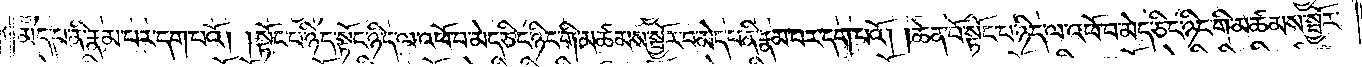མེད་པ་ནི་རྣམ་པར་དག་པའོ། །སྟོང་པ་ཉིད་སྟོང་པ་ཉིད་ལ་འཕོ་བ་མེད་ཅིང་ཉིང་གི་མཚམས་སྦྱོར་བ་མེད་པ་ནི་རྣམ་པར་དག་པའོ། །ཆེན་པོ་སྟོང་པ་ཉིད་ལ་འཕོ་བ་མེད་ཅིང་ཉིང་གི་མཚམས་སྦྱོར་
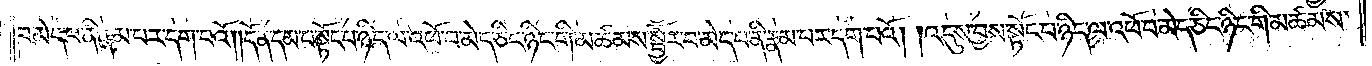བ་མེད་པ་ནི་རྣམ་པར་དག་པའོ། །དོན་དམ་པ་སྟོང་པ་ཉིད་ལ་འཕོ་བ་མེད་ཅིང་ཉིང་གི་མཚམས་སྦྱོར་བ་མེད་པ་ནི་རྣམ་པར་དག་པའོ། །འདུས་བྱས་སྟོང་པ་ཉིད་ལ་འཕོ་བ་མེད་ཅིང་ཉིང་གི་མཚམས་
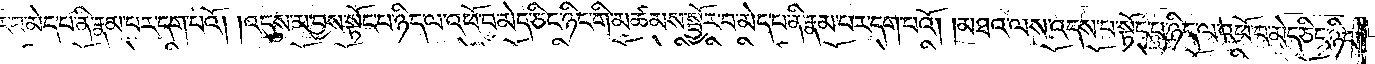སྦྱོར་བ་མེད་པ་ནི་རྣམ་པར་དག་པའོ། །འདུས་མ་བྱས་སྟོང་པ་ཉིད་ལ་འཕོ་བ་མེད་ཅིང་ཉིང་གི་མཚམས་སྦྱོར་བ་མེད་པ་ནི་རྣམ་པར་དག་པའོ། །མཐའ་ལས་འདས་པ་སྟོང་པ་ཉིད་ལ་འཕོ་བ་མེད་ཅིང་ཉིང་
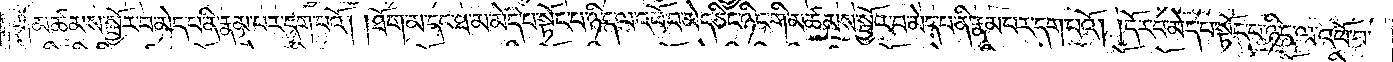གི་མཚམས་སྦྱོར་བ་མེད་པ་ནི་རྣམ་པར་དག་པའོ། །ཐོག་མ་དང་ཐ་མ་མེད་པ་སྟོང་པ་ཉིད་ལ་འཕོ་བ་མེད་ཅིང་ཉིང་གི་མཚམས་སྦྱོར་བ་མེད་པ་ནི་རྣམ་པར་དག་པའོ། །དོར་བ་མེད་པ་སྟོང་པ་ཉིད་ལ་འཕོ་བ་
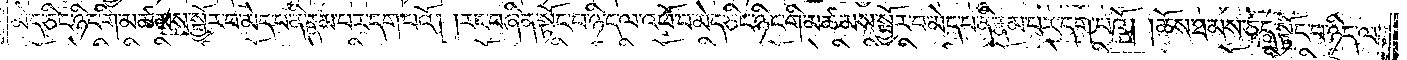མེད་ཅིང་ཉིང་གི་མཚམས་སྦྱོར་བ་མེད་པ་ནི་རྣམ་པར་དག་པའོ། །རང་བཞིན་སྟོང་པ་ཉིད་ལ་འཕོ་བ་མེད་ཅིང་ཉིང་གི་མཚམས་སྦྱོར་བ་མེད་པ་ནི་རྣམ་པར་དག་པའོ། །ཆོས་ཐམས་ཅད་སྟོང་པ་ཉིད་ལ་
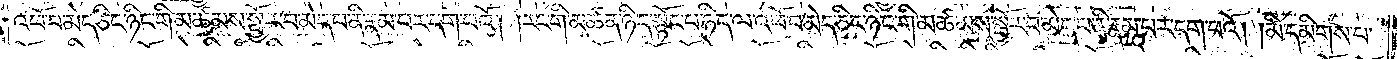འཕོ་བ་མེད་ཅིང་ཉིང་གི་མཚམས་སྦྱོར་བ་མེད་པ་ནི་རྣམ་པར་དག་པའོ། །རང་གི་མཚན་ཉིད་སྟོང་པ་ཉིད་ལ་འཕོ་བ་མེད་ཅིང་ཉིང་གི་མཚམས་སྦྱོར་བ་མེད་པ་ནི་རྣམ་པར་དག་པའོ། །མི་དམིགས་པ་
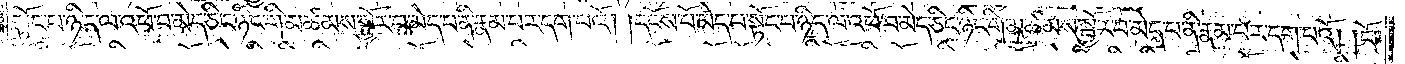སྟོང་པ་ཉིད་ལ་འཕོ་བ་མེད་ཅིང་ཉིང་གི་མཚམས་སྦྱོར་བ་མེད་པ་ནི་རྣམ་པར་དག་པའོ། །དངོས་པོ་མེད་པ་སྟོང་པ་ཉིད་ལ་འཕོ་བ་མེད་ཅིང་ཉིང་གི་མཚམས་སྦྱོར་བ་མེད་པ་ནི་རྣམ་པར་དག་པའོ། །ངོ་
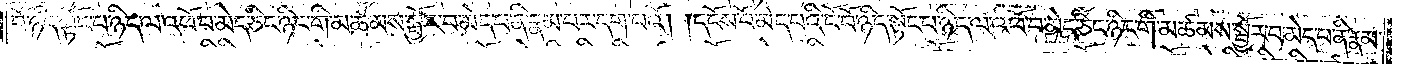བོ་ཉིད་སྟོང་པ་ཉིད་ལ་འཕོ་བ་མེད་ཅིང་ཉིང་གི་མཚམས་སྦྱོར་བ་མེད་པ་ནི་རྣམ་པར་དག་པའོ། །དངོས་པོ་མེད་པའི་ངོ་བོ་ཉིད་སྟོང་པ་ཉིད་ལ་འཕོ་བ་མེད་ཅིང་ཉིང་གི་མཚམས་སྦྱོར་བ་མེད་པ་ནི་རྣམ་
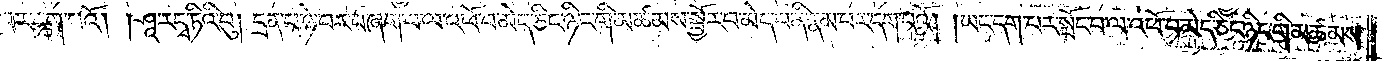པར་དག་པའོ། །ཤཱ་རདྭ་ཏིའི་བུ། དྲན་པ་ཉེ་བར་བཞག་པ་ལ་འཕོ་བ་མེད་ཅིང་ཉིང་གི་མཚམས་སྦྱོར་བ་མེད་པ་ནི་རྣམ་པར་དག་པའོ། །ཡང་དག་པར་སྤོང་བ་ལ་འཕོ་བ་མེད་ཅིང་ཉིང་གི་མཚམས་
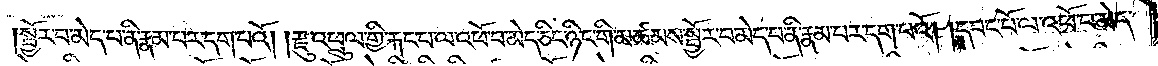སྦྱོར་བ་མེད་པ་ནི་རྣམ་པར་དག་པའོ། །རྫུ་འཕྲུལ་གྱི་རྐང་པ་ལ་འཕོ་བ་མེད་ཅིང་ཉིང་གི་མཚམས་སྦྱོར་བ་མེད་པ་ནི་རྣམ་པར་དག་པའོ། །དབང་པོ་ལ་འཕོ་བ་མེད་
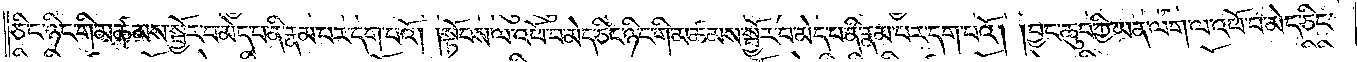ཅིང་ཉིང་གི་མཚམས་སྦྱོར་བ་མེད་པ་ནི་རྣམ་པར་དག་པའོ། །སྟོབས་ལ་འཕོ་བ་མེད་ཅིང་ཉིང་གི་མཚམས་སྦྱོར་བ་མེད་པ་ནི་རྣམ་པར་དག་པའོ། །བྱང་ཆུབ་ཀྱི་ཡན་ལག་ལ་འཕོ་བ་མེད་ཅིང་
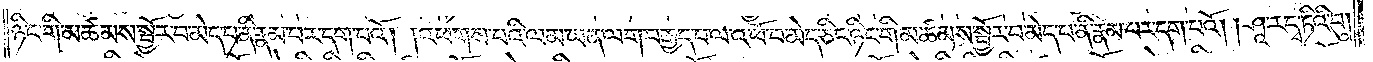ཉིང་གི་མཚམས་སྦྱོར་བ་མེད་པ་ནི་རྣམ་པར་དག་པའོ། །འཕགས་པའི་ལམ་ཡན་ལག་བརྒྱད་པ་ལ་འཕོ་བ་མེད་ཅིང་ཉིང་གི་མཚམས་སྦྱོར་བ་མེད་པ་ནི་རྣམ་པར་དག་པའོ། །ཤཱ་རདྭ་ཏིའི་བུ།
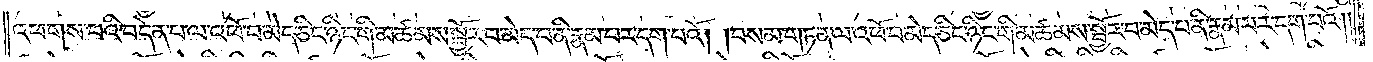འཕགས་པའི་བདེན་པ་ལ་འཕོ་བ་མེད་ཅིང་ཉིང་གི་མཚམས་སྦྱོར་བ་མེད་པ་ནི་རྣམ་པར་དག་པའོ། །བསམ་གཏན་ལ་འཕོ་བ་མེད་ཅིང་ཉིང་གི་མཚམས་སྦྱོར་བ་མེད་པ་ནི་རྣམ་པར་དག་པའོ། །
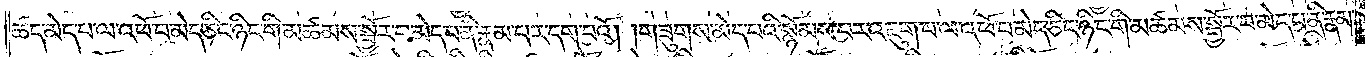ཚད་མེད་པ་ལ་འཕོ་བ་མེད་ཅིང་ཉིང་གི་མཚམས་སྦྱོར་བ་མེད་པ་ནི་རྣམ་པར་དག་པའོ། །གཟུགས་མེད་པའི་སྙོམས་པར་འཇུག་པ་ལ་འཕོ་བ་མེད་ཅིང༌ཉིང་གི་མཚམས་སྦྱོར་བ་མེད་པ་ནི་རྣམ་
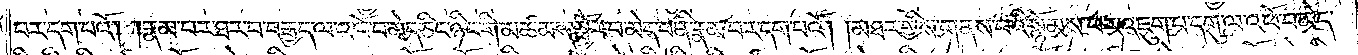པར་དག་པའོ། །རྣམ་པར་ཐར་བ་བརྒྱད་ལ་འཕོ་བ་མེད་ཅིང་ཉིང་གི་མཚམས་སྦྱོར་བ་མེད་པ་ནི་རྣམ་པར་དག་པའོ། །མཐར་གྱིས་གནས་པའི་སྙོམས་པར་འཇུག་པ་དགུ་ལ་འཕོ་བ་མེད་
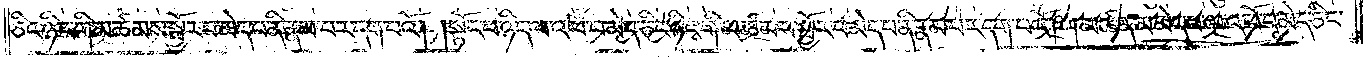ཅིང་ཉིང་གི་མཚམས་སྦྱོར་བ་མེད་པ་ནི་རྣམ་པར་དག་པའོ། །སྟོང་པ་ཉིད་ལ་འཕོ་བ་མེད་ཅིང་ཉིང་གི་མཚམས་སྦྱོར་བ་མེད་པ་ནི་རྣམ་པར་དག་པའོ། །མཚན་མ་མེད་པ་ལ་འཕོ་བ་མེད་ཅིང་
